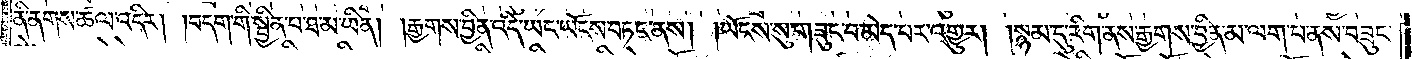ནི་ནགས་ཚལ་འདིར། །བདག་གི་སྦྱིན་པ་ཐ་མ་ཡིན། །རྒྱགས་བྱིན་འདི་ཡང་ཡོངས་བཏང་ནས། །ཡོངས་སུ་གཟུང་བ་མེད་པར་འགྱུར། །སྙམ་དུ་རིག་ནས་རྒྱགས་བྱིན་མ་ལག་པ་ནས་བཟུང་
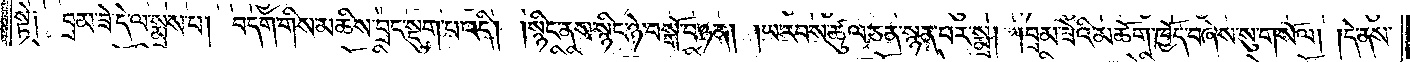སྟེ༑ བྲམ་ཟེ་དེ་ལ་སྨྲས་པ། བདག་གིས་མཆིས་བྲང་སྡུག་པ་འདི། །སྙིང་ནས་སྙིང་ཉེ་བསྒོ་བ་ཉན། །ཡ་རབས་ཚུལ་ཅན་སྙན་པར་སྨྲ། །བྲམ་ཟེའི་མཆོག་ཁྱོད་བཞེས་སུ་གསོལ། །དེ་ནས་
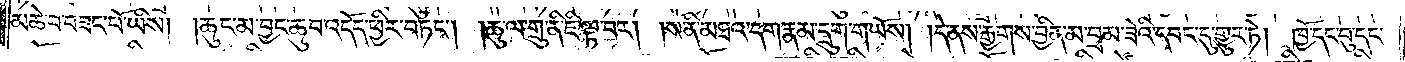མཆེ་བ་བཟང་པོ་ཡིས། །ཆུང་མ་བྱང་ཆུབ་འདོད་ཕྱིར་བཏང༌། །ཆུ་ལ་གྲུ་ནི་ཇི་ལྟ་བར། །ས་ནི་མཐའ་དག་རྣམ་དྲུག་གཡོས། །དེ་ནས་རྒྱགས་བྱིན་མ་བྲམ་ཟེའི་དབང་དུ་གྱུར་ཏེ། ཁྱོ་དང་བུ་དང་
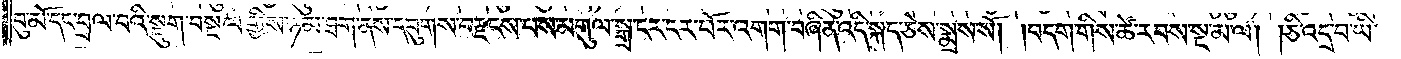བུ་མོ་དང་བྲལ་བའི་སྡུག་བསྔལ་གྱིས་ཉམ་ཐག་ནས་དབུགས་བརྫངས་པས་མགུལ་སྒྲ་ངར་ངར་པོར་འགག་བཞིན་འདི་སྐད་ཅེས་སྨྲས་སོ། །བདག་གིས་ཚེ་རབས་སྔ་མ་ལ། །ཅི་འདྲ་བ་ཡི་
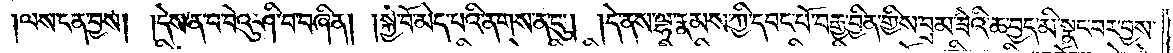ལས་ངན་བྱས། །དེས་ན་བ་བེའུ་ཤི་བ་བཞིན། །སྐྱེ་བོ་མེད་པའི་ནགས་ན་ངུ༌། །དེ་ནས་ལྷ་རྣམས་ཀྱི་དབང་པོ་བརྒྱ་བྱིན་གྱིས་བྲམ་ཟེའི་ཆ་བྱད་མི་སྣང་བར་བྱས་
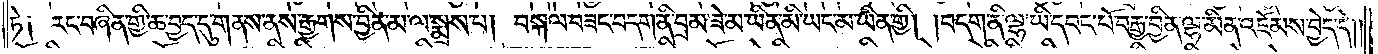ཏེ༑ རང་བཞིན་གྱི་ཆ་བྱད་དུ་གནས་ནས་རྒྱགས་བྱིན་མ་ལ་སྨྲས་པ། བསྐལ་བཟང་བདག་ནི་བྲམ་ཟེ་མ་ཡིན་མི་ཡང་མ་ཡིན་གྱི། །བདག་ནི་ལྷ་ཡི་དབང་པོ་བརྒྱ་བྱིན་ལྷ་མིན་འཇོམས་བྱེད་དེ༎
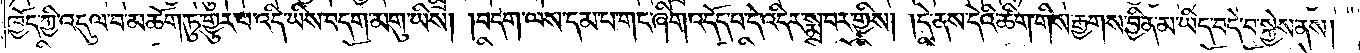ཁྱོད་ཀྱི་འདུལ་བ་མཆོག་ཏུ་གྱུར་པ་འདི་ཡིས་བདག་མགུ་ཡིས། །བདག་ལས་དམ་པ་གང་ཞིག་འདོད་པ་དེ་འདིར་སྨྲ་བར་གྱིས། །དེ་ནས་དེའི་ཚིག་གིས་རྒྱགས་བྱིན་མ་ཡིད་བདེ་བ་སྐྱེས་ནས།
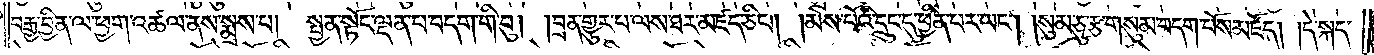བརྒྱ་བྱིན་ལ་ཕྱག་འཚལ་ནས་སྨྲས་པ། སྤྱན་སྟོང་ལྡན་པ་བདག་གི་བུ། །བྲན་གྱུར་པ་ལས་ཐར་མཛད་ཅིང༌། །མེས་པོའི་དྲུང་དུ་ཕྱིན་པར་ཡང༌། །སུམ་ཅུ་རྩ་གསུམ་བདག་པོས་མཛོད། །དེ་སྐད་
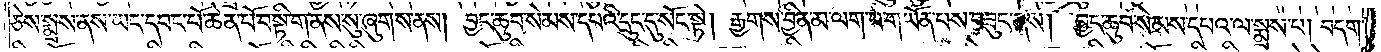ཅེས་སྨྲས་ནས། ཡང་དབང་པོ་ཆེན་པོ་བསྟི་གནས་སུ་ཞུགས་ནས། བྱང་ཆུབ་སེམས་དཔའི་དྲུང་དུ་སོང་སྟེ། རྒྱགས་བྱིན་མ་ལག་པ་གཡོན་པས་བཟུང་ནས། བྱང་ཆུབ་སེམས་དཔའ་ལ་སྨྲས་པ། བདག་
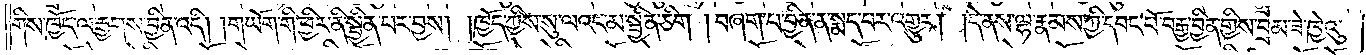གིས་ཁྱོད་ལ་རྒྱགས་བྱིན་འདི། །གཡོག་གི་ཕྱིར་ནི་སྦྱིན་པར་བྱས། །ཁྱོད་ཀྱིས་སུ་ལའང་མ་སྦྱིན་ཅིག །བཞག་པ་བྱིན་ན་སྨད་པར་འགྱུར། །དེ་ནས་ལྷ་རྣམས་ཀྱི་དབང་པོ་བརྒྱ་བྱིན་གྱིས་བྲམ་ཟེ་ཁྱེའུ་
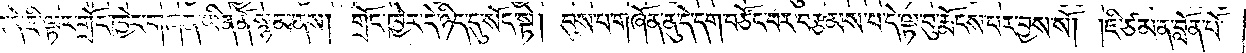དང་བུ་མོ་ཁྱེར་བ་དེ་ཇི་ལྟར་གྲོང་ཁྱེར་གཞན་ཡིན་ནོ་སྙམ་ནས། གྲོང་ཁྱེར་དེ་ཉིད་དུ་སོང་སྟེ། བུས་པ་གཞོན་ནུ་དེ་དག་བཙོང་བར་བརྩམས་པ་དེ་ལྟ་བུ་རྨོངས་པར་བྱས་སོ། །ཇི་ཙམ་ན་བློན་པོ་
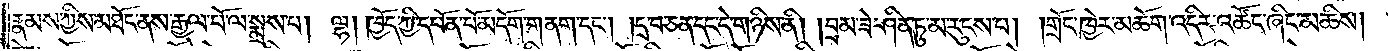རྣམས་ཀྱིས་མཐོང་ནས་རྒྱལ་པོ་ལ་སྨྲས་པ། ལྷ། ཁྱོད་ཀྱི་དཔོན་པོ་མདོག་གནག་དང༌། །དྲ་བ་ཅན་དང་དེ་གཉིས་ནི། །བྲམ་ཟེ་ཤིན་ཏུ་མ་རུངས་པ། །གྲོང་ཁྱེར་མཆོག་འདིར་འཚོང་ཞིང་མཆིས། །
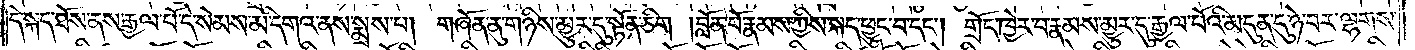དེ་སྐད་ཐོས་ནས་རྒྱལ་པོ་དེ་སེམས་མི་དགའ་ནས་སྨྲས་པ། གཞོན་ནུ་གཉིས་མྱུར་དུ་སྟོན་ཅིག །བློན་པོ་རྣམས་ཀྱིས་སྐད་ཕྱུང་བ་དང༌། གྲོང་ཁྱེར་བ་རྣམས་མྱུར་དུ་རྒྱལ་པོའི་མདུན་དུ་ཉེ་བར་ལྷགས་
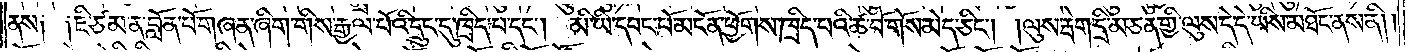ནས༑ ༑ཇི་ཙམ་ན་བློན་པོ་གཞན་ཞིག་གིས་རྒྱལ་པོའི་དྲུང་དུ་ཁྲིད་པ་དང༌། མི་ཡི་དབང་པོ་མངོན་ཕྱོགས་ཁྲིད་པའི་ཚ་བོ་གོས་མེད་ཅིང༌། །ལུས་རྦེག་དྲི་མ་ཅན་གྱི་ལུས་དེ་དེ་ཡིས་མཐོང་ནས་ནི། །
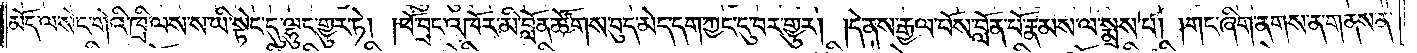མོད་ལ་སེང་གེའི་ཁྲི་ལས་ས་ཡི་སྟེང་དུ་ལྷུང་གྱུར་ཏེ། །ཕོ་བྲང་འཁོར་མི་བློན་ཚོགས་བུད་མེད་དག་ཀྱང་དུ་བར་གྱུར། །དེ་ནས་རྒྱལ་པོས་བློན་པོ་རྣམས་ལ་སྨྲས་པ། །གང་ཞིག་ནགས་ན་གནས་ན་
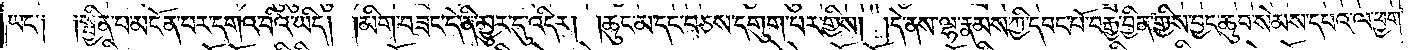ཡང་༑ ༑སྦྱིན་པ་མངོན་པར་དགའ་བའི་ཡིད། །མིག་བཟང་དེ་ནི་མྱུར་དུ་འདིར། །ཆུང་མ་དང་བཅས་དགུག་པར་གྱིས། །དེ་ནས་ལྷ་རྣམས་ཀྱི་དབང་པོ་བརྒྱ་བྱིན་གྱིས་བྱང་ཆུབ་སེམས་དཔའ་ལ་ཕྱག་
